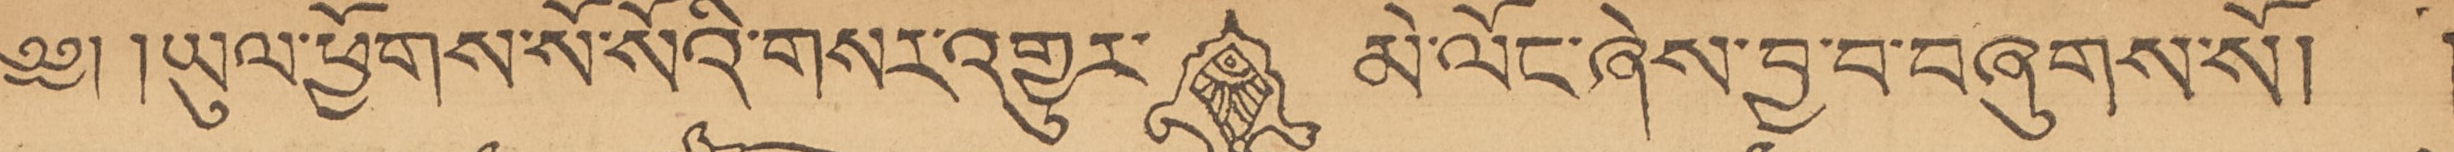༄༅། །ཡུལ་ཕྱོགས་སོ་སོའི་གསར་འགྱུར་ མེ་ལོང་ཞེས་བྱ་བ་བཞུགས་སོ། །
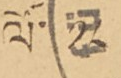ལོ་ ༡༨
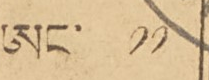ཨང་ ༡༡
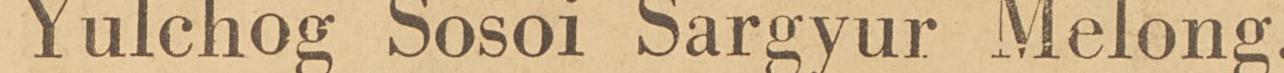Yulchog Sosoi Sargyur Melong.
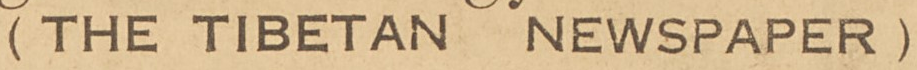( THE TIBETAN NEWSPAPER )
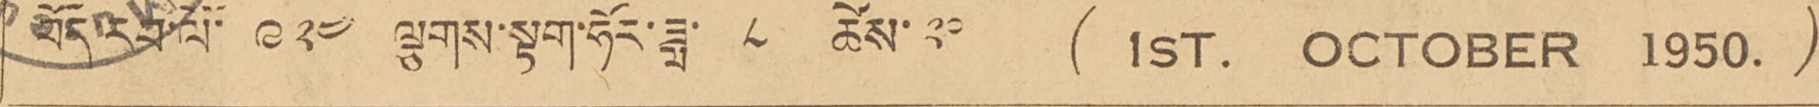བོད་རབ་ལོ་ ༩༢༤ ལྕགས་སྟག་ཧོར་ཟླ་ ༨ ཚེས་ ༢༠ ( 1st. OCTOBER 1950.)
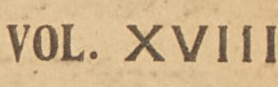VOL. XVIII
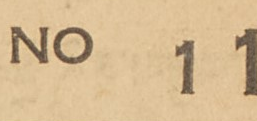NO 11
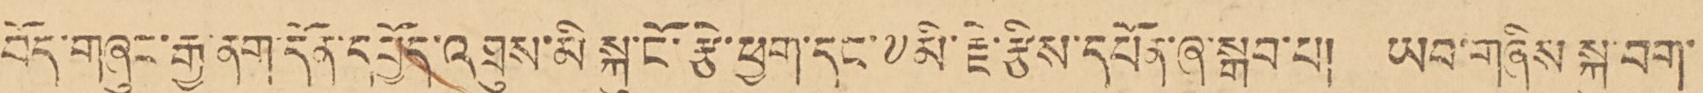བོད་གཞུང་རྒྱ་ནག་དོན་དཔྱོད་འཐུས་མི སྐུ་ངོ་རྩེ་ཕྱག་དང་༸མི་རྗེས་རྩིས་དཔོན་ཞྭ་སྒབ་པ། ཡབ་གཞིས་སྐུ་བག་
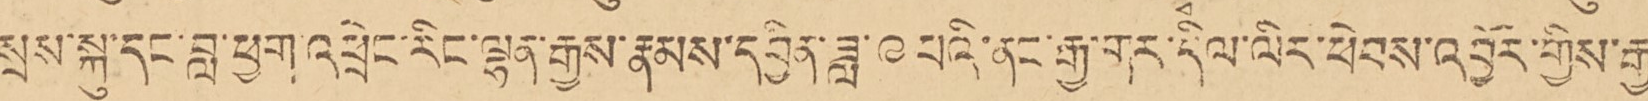སྲས་སྐུ་དང་བླ་ཕྱག་འཕྲེང་རིང་ལྷན་རྒྱས་རྣམས་དབྱིན་ཟླ་ ༩ པའི་ནང་རྒྱ་གར་དིལ་ལིར་ཕེབས་འབྱོར་གྱིས་རྒྱ་
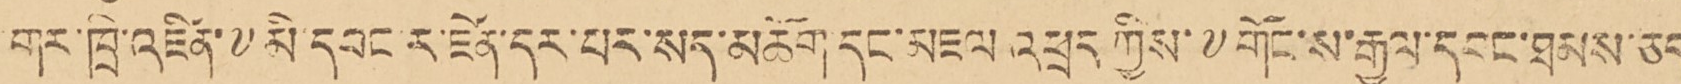གར་ཁྲི་འཛིན་༸མི་དབང་ར་ཛེན་དར་པར་སད་མཆོག་དང་མཇལ་འཕྲད་ཀྱིས་༸གོང་ས་རྒྱལ་དབང་ཐམས་ཅད་
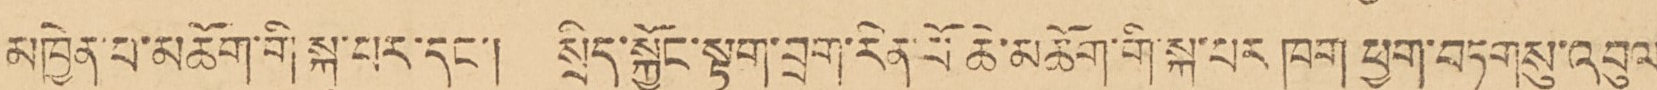མཁྱེན་པ་མཆོག་གི་སྐུ་པར་དང་། སྲིད་སྐྱོང་སྟག་བྲག་རིན་པོ ཆེ་མཆོག་གི་སྐུ་པར་ཁག ཕྱག་བཏགསུ་འབུལ་
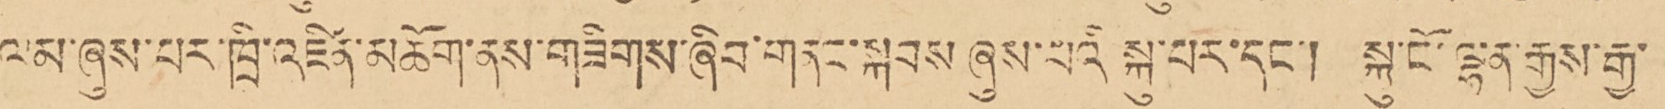ལམ་ཞུས་པར་ཁྲི་འཛིན་མཆོག་ནས་གཟིགས་ཞིབ་གནང་སྐབས་ཞུས་པའི སྐུ་པར་དང་། སྐུ་ངོ་ལྷན་རྒྱས་རྒྱ་
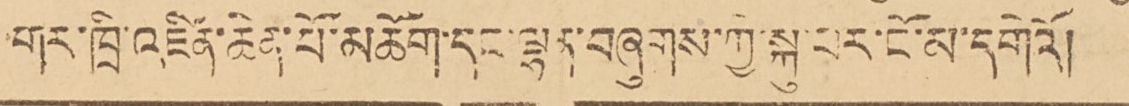གར་ཁྲི་འཛིན་ཆེན་པོ་མཆོག་དང་ལྷན་བཞུགས་ཀྱི་སྐུ་པར་ངོ་མ་དགེའོ། །
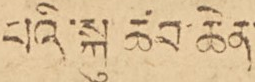པའི་སྐུ ཚབ་ཆེན་
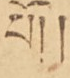པོ། །
